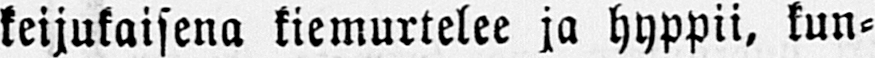keijukaisena kiemurtelee ja hyppii, kun-
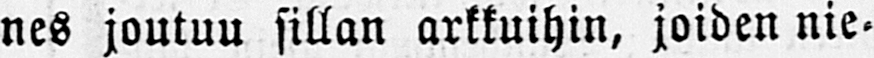nes joutuu sillan arkkuihin, joiden nie-
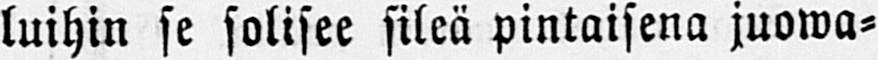luihin se solisee sileä pintaisena juowa-
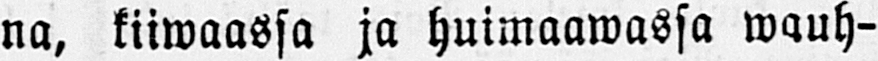na, kiiwaassa ja huimaawassa wauh-
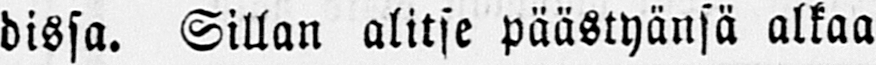dissa. Sillan alitse päästyänsä alkaa
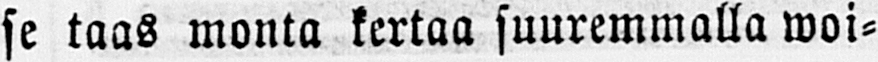se taas monta kertaa suuremmalla woi-
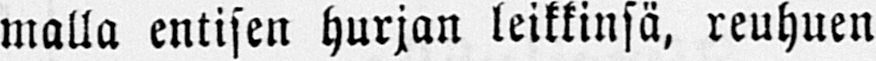malla entisen hurjan leikkinsä, reuhuen
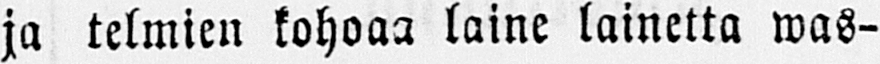ja telmien kohoaa laine lainetta was-
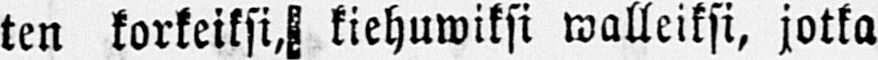ten korkeiksi, kiehuwiksi walleiksi, jotka
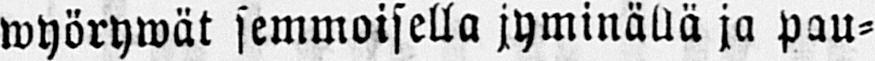wyörywät semmoisella jyminällä ja pau-
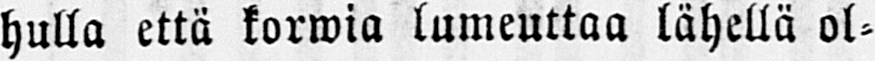hulla että korwia lumeuttaa lähellä ol-
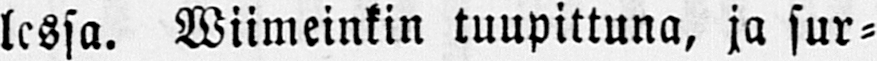lessa. Wiimeinkin tuupittuna, ja sur-
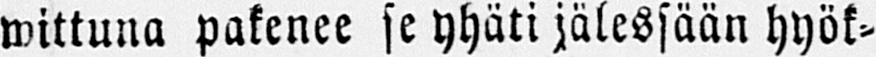wittuna pakenee se yhäti jälessään hyök-
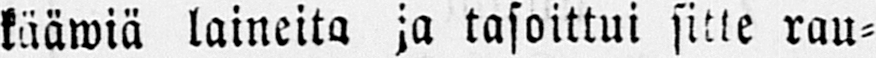kääwiä laineita ja tasoittui sitte rau-
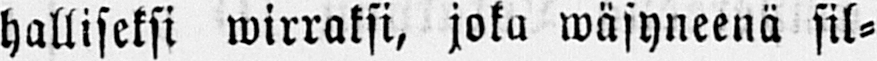halliseksi wirraksi, joka wäsyneenä sil-
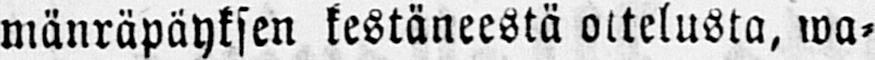mänräpäyksen kestäneestä ottelusta, wa-
